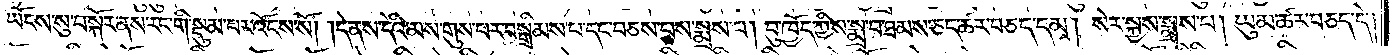ཡོངས་སུ་བསྐོར་ནས་རང་གི་སྡུམ་པར་འོངས་སོ། །དེ་ནས་དེའི་མས་གུས་པར་བསྒྲིམས་པ་དང་བཅས་པས་སྨྲས་པ། བུ་ཁྱོད་ཀྱིས་སྨྲ་བ་ཐམས་ཅད་ཚར་བཅད་དམ། སེར་སྐྱས་སྨྲས་པ། ཡུམ་ཚར་བཅད་དེ།
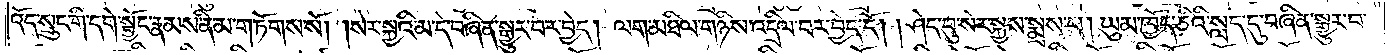འོད་སྲུང་གི་དགེ་སྦྱོང་རྣམས་ནི་མ་གཏོགས་སོ། །སེར་སྐྱའི་མ་བཞིན་སྒྱུར་བར་བྱེད། ལག་མཐིལ་གཉིས་འདྲིལ་བར་བྱེད་དོ། །ཤེད་བུ་སེར་སྐྱས་སྨྲས་པ། ཡུམ་ཁྱོད་ཅིའི་སླད་དུ་བཞིན་སྒྱུར་བ་
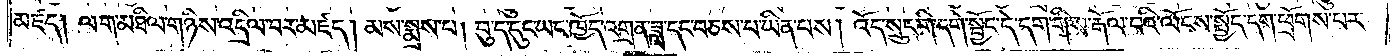མཛད། ལག་མཐིལ་གཉིས་འདྲིལ་བར་མཛད། མས་སྨྲས་པ། བུ་ད་དུང་ཡང་ཁྱོད་འགྲན་ཟླ་དང་བཅས་པ་ཡིན་པས། འོད་སྲུང་གི་དགེ་སྦྱོང་དེ་དག་གིས་རྒོལ་བའི་ལོངས་སྤྱོད་དག་ཕྲོགས་པར་
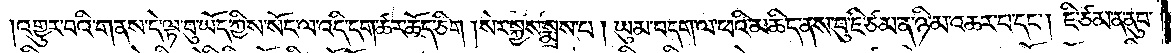འགྱུར་བའི་གནས་དེ་ལྟ་བུ་ཡོད་ཀྱིས་སོང་ལ་འདི་དག་ཚར་ཆོད་ཅིག །སེར་སྐྱས་སྨྲས་པ། ཡུམ་བདག་ལ་ཕའི་མཆིད་ནས་བུ་ཇི་ཙམ་ན་ཉི་མ་འཆར་པ་དང༌། ཇི་ཙམ་ན་ནུབ་
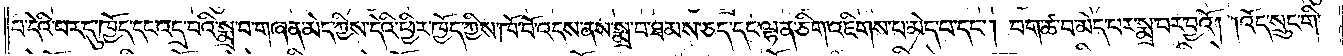པ་དེའི་བར་དུ་ཁྱོད་དང་འདྲ་བའི་སྨྲ་བ་གཞན་མེད་ཀྱིས་དེའི་ཕྱིར་ཁྱོད་ཀྱིས་ཁོ་བོ་འདས་ནས་སྨྲ་བ་ཐམས་ཅད་དང་ལྷན་ཅིག་འཇིགས་པ་མེད་པ་དང༌། བག་ཚ་བ་མེད་པར་སྨྲ་བར་བྱའོ། །འོད་སྲུང་གི་
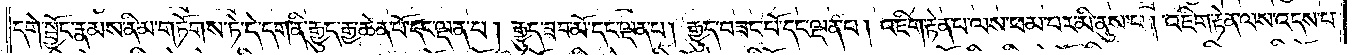དགེ་སྦྱོང་རྣམས་ནི་མ་གཏོགས་ཏེ་དེ་དག་ནི་རྒྱུད་རྒྱ་ཆེན་པོ་དང་ལྡན་པ། རྒྱུད་ཟབ་མོ་དང་ལྡན་པ། རྒྱུད་བཟང་པོ་དང་ལྡན་པ། འཇིག་རྟེན་པ་ལས་ཕམ་པར་མི་ནུས་པ། འཇིག་རྟེན་ལས་འདས་པ་
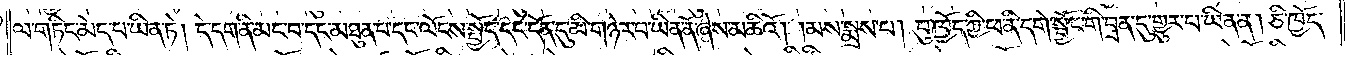ལ་གཏིང་མེད་པ་ཡིན་ཏེ། དེ་དག་ནི་མང་བ་དང་མཐུན་པ་དང་ལོངས་སྤྱོད་དང་དོན་དུ་མི་གཉེར་བ་ཡིན་ནོ་ཞེས་མཆིའོ། །མས་སྨྲས་པ། བུ་ཁྱོད་ཀྱི་ཕ་ནི་དགེ་སྦྱོང་གི་བྲན་དུ་གྱུར་པ་ཡིན་ན། ཅི་ཁྱོད་
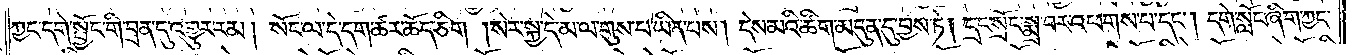ཀྱང་དགེ་སྦྱོང་གི་བྲན་དུ་འགྱུར་རམ། སོང་ལ་དེ་དག་ཚར་ཆོད་ཅིག །སེར་སྐྱ་དེ་མ་ལ་གུས་པ་ཡིན་པས། དེས་མའི་ཚིག་མདུན་དུ་བྱས་ཏེ། དྲང་སྲོང་སྨྲ་བར་འཕགས་པ་དང༌། དགེ་སློང་ཞིག་ཀྱང་
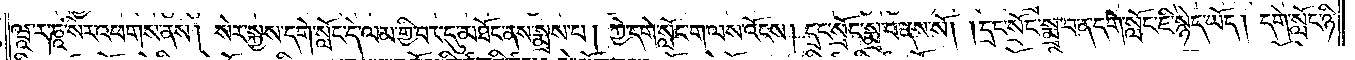ཝཱ་ར་ཎཱ་སིར་འཕགས་ནས། སེར་སྐྱས་དགེ་སློང་དེ་ལམ་གྱི་བར་དུ་མཐོང་ནས་སྨྲས་པ། ཀྱེ་དགེ་སློང་ག་ལས་འོངས། དྲང་སྲོང་སྨྲ་བ་ནས་སོ། །དྲང་སྲོང་སྨྲ་བ་ན་དགེ་སློང་ཇི་སྙེད་ཡོད། དགེ་སློང་ཉི་
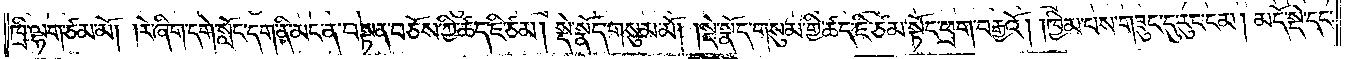ཁྲི་ལྷག་ཙམ་མོ། །རེ་ཞིག་དགེ་སློང་དག་ནི་མང་ན་བསྟན་བཅོས་ཀྱི་ཚད་ཇི་ཙམ། སྡེ་སྣོད་གསུམ་མོ། །སྡེ་སྣོད་གསུམ་གྱི་ཚད་ཇི་ཙམ་སྟོང་ཕྲག་བརྒྱའོ། །ཁྱིམ་པས་གཟུང་དུ་རུང་ངམ། མདོ་སྡེ་དང་
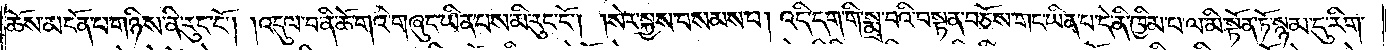ཆོས་མངོན་པ་གཉིས་ནི་རུང་ངོ༌། །འདུལ་བ་ནི་ཆོ་གའི་གཞུང་ཡིན་པས་མི་རུང་ངོ༌། །སེར་སྐྱས་བསམས་པ། འདི་དག་གི་སྨྲ་བའི་བསྟན་བཅོས་གང་ཡིན་པ་དེ་ནི་ཁྱིམ་པ་ལ་མི་སྟོན་ཏོ་སྙམ་དུ་རིག་
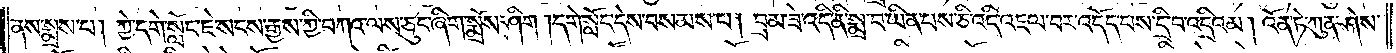ནས་སྨྲས་པ། ཀྱེ་དགེ་སློང་ཇེ་སངས་རྒྱས་ཀྱི་བཀའ་ལས་ཅུང་ཞིག་སྨྲོས་ཤིག །དགེ་སློང་དེས་བསམས་པ། བྲམ་ཟེ་འདི་ནི་སྨྲ་བ་ཡིན་པས་ཅི་འདི་འཇལ་བར་འདོད་པས་དྲི་བ་འདྲིའམ། འོན་ཏེ་ཀུན་ཤེས་
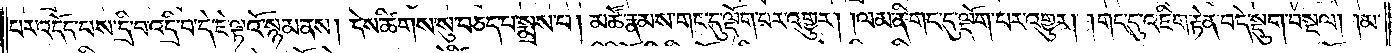པར་འདོད་པས་དྲི་བ་འདྲི་བ་དེ་ཇེ་ལྟའོ་སྙམ་ནས། དེས་ཚིགས་སུ་བཅད་པ་སྨྲས་པ། མཚོ་རྣམས་གང་དུ་ལྡོག་པར་འགྱུར། །ལམ་ནི་གང་དུ་ལྡོག་པར་འགྱུར། །གང་དུ་འཇིག་རྟེན་བདེ་སྡུག་བསྔལ། །མ་
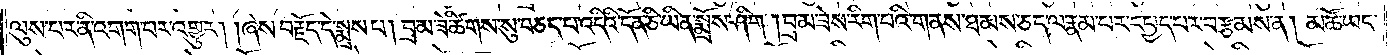ལུས་པར་ནི་འགག་པར་འགྱུར། །ཞེས་བརྗོད་དེ་སྨྲས་པ། བྲམ་ཟེ་ཚིགས་སུ་བཅད་པ་འདིའི་དོན་ཅི་ཡིན་སྨྲོས་ཤིག །བྲམ་ཟེས་རིག་པའི་གནས་ཐམས་ཅད་ལ་རྣམ་པར་དཔྱད་པར་བརྩམས་ན། མཚོ་ཡང་
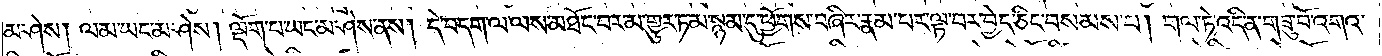མ་ཤེས། ལམ་ཡང་མ་ཤེས། ལྡོག་པ་ཡང་མ་ཤེས་ནས། དེ་བདག་ལ་ལས་མཐོང་བར་མ་གྱུར་ཏམ་སྙམ་དུ་ཕྱོགས་བཞིར་རྣམ་པར་ལྟ་བར་བྱེད་ཅིང་བསམས་པ། གལ་ཏེ་འདི་ན་གཟུ་བོ་འགའ་
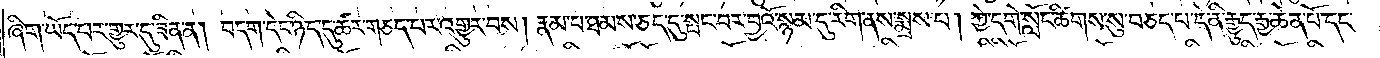ཞིག་ཡོད་པར་གྱུར་དུ་ཟིན་ན། བདག་དེང་ཉིད་དུ་ཚར་གཅད་པར་འགྱུར་བས། རྣམ་པ་ཐམས་ཅད་དུ་སྤང་བར་བྱའོ་སྙམ་དུ་རིག་ནས་སྨྲས་པ། ཀྱེ་དགེ་སློང་ཚིགས་སུ་བཅད་པ་དེ་ནི་རྒྱུད་རྒྱ་ཆེན་པོ་དང་
